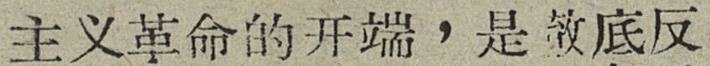主义革命的开端，是徹底反
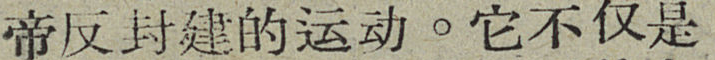帝反封建的运动。它不仅是
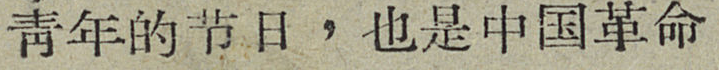靑年的节日，也是中国革命
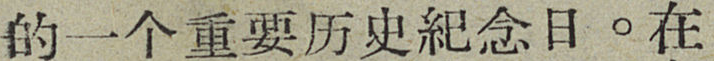的一个重要历史紀念日。在
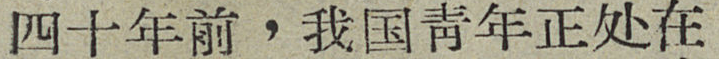四十年前，我国靑年正处在
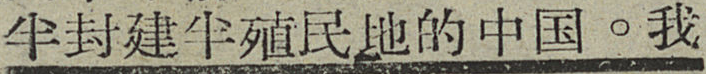半封建半殖民地的中国。我
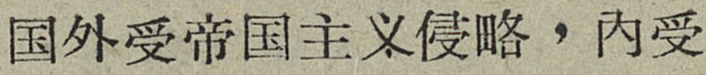国外受帝国主义侵略，內受
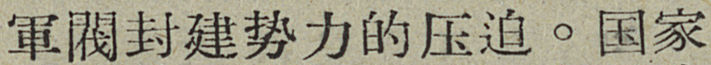軍閥封建势力的压迫。国家
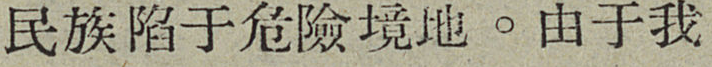民族陷于危險境地。由于我
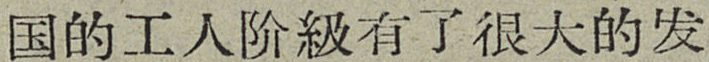国的工人阶級有了很大的发
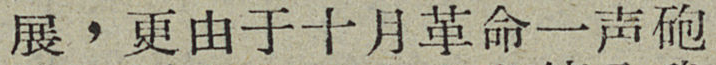展，更由于十月革命一声砲
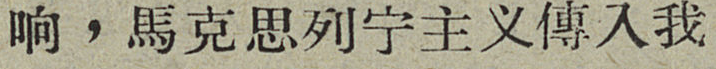响，馬克思列宁主义傳入我
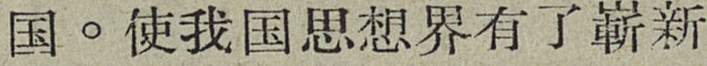国。使我国思想界有了嶄新
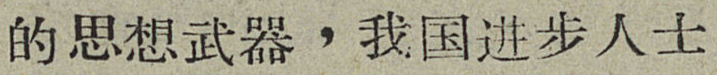的思想武器，我国进步人士
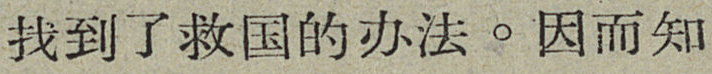找到了救国的办法。因而知
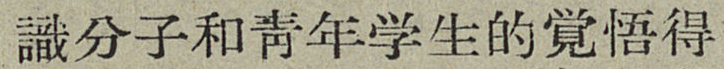識分子和靑年学生的覚悟得
